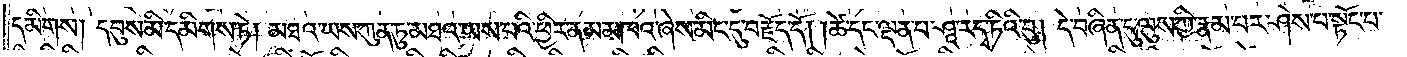དམིགས། དབུས་མི་དམིགས་ཏེ༑ མཐའ་ཡས་ཀུན་ཏུ་མཐའ་ཡས་པའི་ཕྱིར་ནམ་མཁའ་ཞེས་མིང་དུ་བརྗོད་དོ། །ཚེ་དང་ལྡན་པ་ཤཱ་ར་དྭ་ཏིའི་བུ། དེ་བཞིན་དུ་ལུས་ཀྱི་རྣམ་པར་ཤེས་པ་སྟོང་པ་
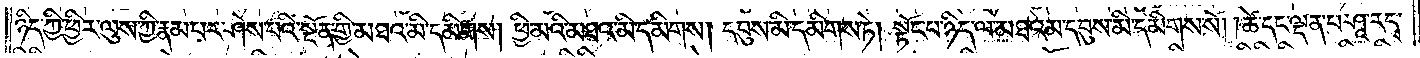ཉིད་ཀྱི་ཕྱིར་ལུས་ཀྱི་རྣམ་པར་ཤེས་པའི་སྔོན་གྱི་མཐའ་མི་དམིགས། ཕྱི་མའི་མཐའ་མི་དམིགས། དབུས་མི་དམིགས་ཏེ། སྟོང་པ་ཉིད་ལ་མཐའམ་དབུས་མི་དམིགས་སོ། །ཚེ་དང་ལྡན་པ་ཤཱ་ར་དྭ་
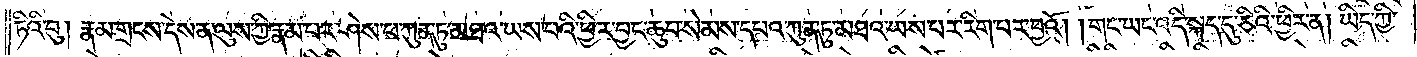ཏིའི་བུ། རྣམ་གྲངས་དེས་ན་ལུས་ཀྱི་རྣམ་པར་ཤེས་པ་ཀུན་ཏུ་མཐའ་ཡས་པའི་ཕྱིར་བྱང་ཆུབ་སེམས་དཔའ་ཀུན་ཏུ་མཐའ་ཡས་པར་རིག་པར་བྱའོ། །གང་ཡང་འདི་སྐད་དུ་ཅིའི་ཕྱིར་ན། ཡིད་ཀྱི་
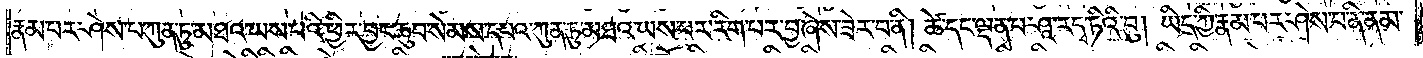རྣམ་པར་ཤེས་པ་ཀུན་ཏུ་མཐའ་ཡས་པའི་ཕྱིར་བྱང་ཆུབ་སེམས་དཔའ་ཀུན་ཏུ་མཐའ་ཡས་པར་རིག་པར་བྱ་ཞེས་ཟེར་བ་ནི། ཚེ་དང་ལྡན་པ་ཤཱ་ར་དྭ་ཏིའི་བུ། ཡིད་ཀྱི་རྣམ་པར་ཤེས་པ་ནི་ནམ་
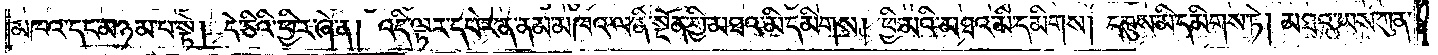མཁའ་དང་མཉམ་པ་སྟེ། དེ་ཅིའི་ཕྱིར་ཞེ་ན། འདི་ལྟར་དཔེར་ན་ནམ་མཁའ་ལ་ནི་སྔོན་གྱི་མཐའ་མི་དམིགས། ཕྱི་མའི་མཐའ་མི་དམིགས། དབུས་མི་དམིགས་ཏེ། མཐའ་ཡས་ཀུན་
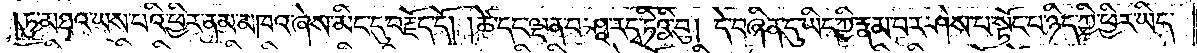ཏུ་མཐའ་ཡས་པའི་ཕྱིར་ནམ་མཁའ་ཞེས་མིང་དུ་བརྗོད་དོ། །ཚེ་དང་ལྡན་པ་ཤཱ་ར་དྭ་ཏིའི་བུ། དེ་བཞིན་དུ་ཡིད་ཀྱི་རྣམ་པར་ཤེས་པ་སྟོང་པ་ཉིད་ཀྱི་ཕྱིར་ཡིད་
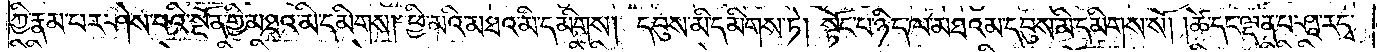ཀྱི་རྣམ་པར་ཤེས་པའི་སྔོན་གྱི་མཐའ་མི་དམིགས། ཕྱི་མའི་མཐའ་མི་དམིགས། དབུས་མི་དམིགས་ཏེ། སྟོང་པ་ཉིད་ལ་མཐའམ་དབུས་མི་དམིགས་སོ། །ཚེ་དང་ལྡན་པ་ཤཱ་ར་དྭ་
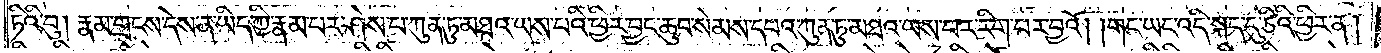ཏིའི་བུ། རྣམ་གྲངས་དེས་ན་ཡིད་ཀྱི་རྣམ་པར་ཤེས་པ་ཀུན་ཏུ་མཐའ་ཡས་པའི་ཕྱིར་བྱང་ཆུབ་སེམས་དཔའ་ཀུན་ཏུ་མཐའ་ཡས་པར་རིག་པར་བྱའོ། །གང་ཡང་འདི་སྐད་དུ་ཅིའི་ཕྱིར་ན།
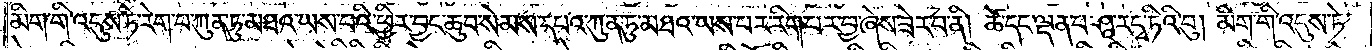མིག་གི་འདུས་ཏེ་རེག་པ་ཀུན་ཏུ་མཐའ་ཡས་པའི་ཕྱིར་བྱང་ཆུབ་སེམས་དཔའ་ཀུན་ཏུ་མཐའ་ཡས་པར་རིག་པར་བྱ་ཞེས་ཟེར་བ་ནི། ཚེ་དང་ལྡན་པ་ཤཱ་ར་དྭ་ཏིའི་བུ། མིག་གི་འདུས་ཏེ་
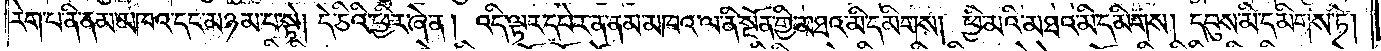རེག་པ་ནི་ནམ་མཁའ་དང་མཉམ་པ་སྟེ། དེ་ཅིའི་ཕྱིར་ཞེ་ན། འདི་ལྟར་དཔེར་ན་ནམ་མཁའ་ལ་ནི་སྔོན་གྱི་མཐའ་མི་དམིགས། ཕྱི་མའི་མཐའ་མི་དམིགས། དབུས་མི་དམིགས་ཏེ།
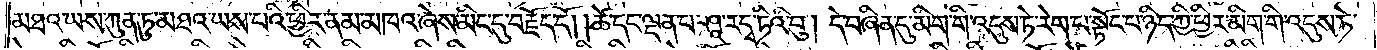མཐའ་ཡས་ཀུན་ཏུ་མཐའ་ཡས་པའི་ཕྱིར་ནམ་མཁའ་ཞེས་མིང་དུ་བརྗོད་དོ། །ཚེ་དང་ལྡན་པ་ཤཱ་ར་དྭ་ཏིའི་བུ། དེ་བཞིན་དུ་མིག་གི་འདུས་ཏེ་རེག་པ་སྟོང་པ་ཉིད་ཀྱི་ཕྱིར་མིག་གི་འདུས་ཏེ་
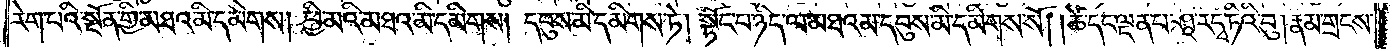རེག་པའི་སྔོན་གྱི་མཐའ་མི་དམིགས། ཕྱི་མའི་མཐའ་མི་དམིགས། དབུས་མི་དམིགས་ཏེ། སྟོང་པ་ཉིད་ལ་མཐའམ་དབུས་མི་དམིགས་སོ། །ཚེ་དང་ལྡན་པ་ཤཱ་ར་དྭ་ཏིའི་བུ། རྣམ་གྲངས་
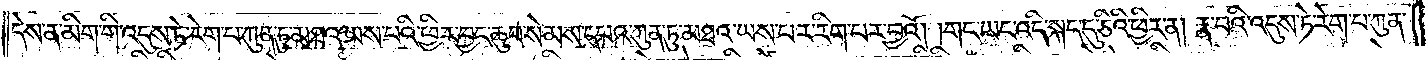དེས་ན་མིག་གི་འདུས་ཏེ་རེག་པ་ཀུན་ཏུ་མཐའ་ཡས་པའི་ཕྱིར་བྱང་ཆུབ་སེམས་དཔའ་ཀུན་ཏུ་མཐའ་ཡས་པར་རིག་པར་བྱའོ། །གང་ཡང་འདི་སྐད་དུ་ཅིའི་ཕྱིར་ན། རྣ་བའི་འདུས་ཏེ་རེག་པ་ཀུན་
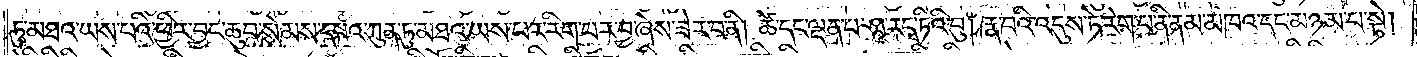ཏུ་མཐའ་ཡས་པའི་ཕྱིར་བྱང་ཆུབ་སེམས་དཔའ་ཀུན་ཏུ་མཐའ་ཡས་པར་རིག་པར་བྱ་ཞེས་ཟེར་བ་ནི། ཚེ་དང་ལྡན་པ་ཤཱ་ར་དྭ་ཏིའི་བུ། རྣ་བའི་འདུས་ཏེ་རེག་པ་ནི་ནམ་མཁའ་དང་མཉམ་པ་སྟེ།
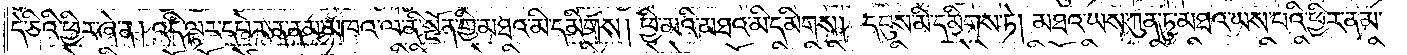དེ་ཅིའི་ཕྱིར་ཞེ་ན། འདི་ལྟར་དཔེར་ན་ནམ་མཁའ་ལ་ནི་སྔོན་གྱི་མཐའ་མི་དམིགས། ཕྱི་མའི་མཐའ་མི་དམིགས། དབུས་མི་དམིགས་ཏེ། མཐའ་ཡས་ཀུན་ཏུ་མཐའ་ཡས་པའི་ཕྱིར་ནམ་
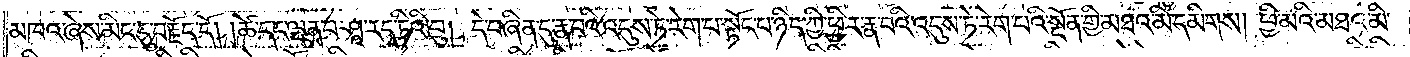མཁའ་ཞེས་མིང་དུ་བརྗོད་དོ། །ཚེ་དང་ལྡན་པ་ཤཱ་ར་དྭ་ཏིའི་བུ། དེ་བཞིན་དུ་རྣ་བའི་འདུས་ཏེ་རེག་པ་སྟོང་པ་ཉིད་ཀྱི་ཕྱིར་རྣ་བའི་འདུས་ཏེ་རེག་པའི་སྔོན་གྱི་མཐའ་མི་དམིགས། ཕྱི་མའི་མཐའ་མི་
